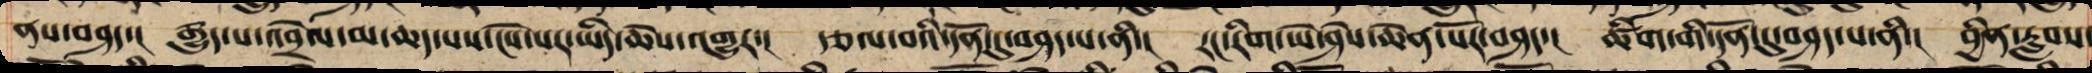ནས་བཤད་། རྒྱུད་པ་འབྲེལ་མ་ཆད་པས་ངེས་པར་ཡིད་ཆེས་འགྱུར་། རྩལ་བའི་དོན་དུ་བཤད་པ་ནི་། རང་རིག་ཡེ་ཤེས་ཆེན་པོར་བཤད་། ཚིག་གི་དོན་དུ་བཤད་པ་ནི་། བྱིན་རླབས་
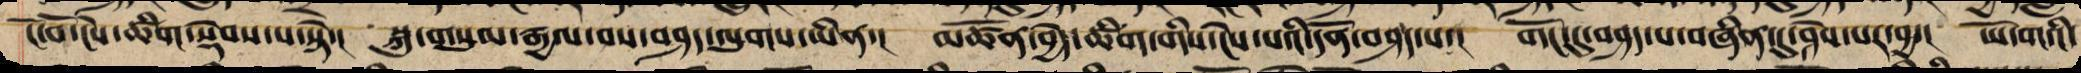ངོ་བོ་ངེས་ཚིག་སྡེབས་པ་སྟེ་། སྐུ་གསུམ་རྒྱལ་བས་བཤད་ལུགས་ཡིན་། མཚོན་བྱེད་ཚིག་གིས་ངེས་པའི་དོན་བཤད་པ་། གོང་དུ་བཤད་པ་བཞིན་དུ་ཤེས་པར་བྱ་། ཡོ་གའི་
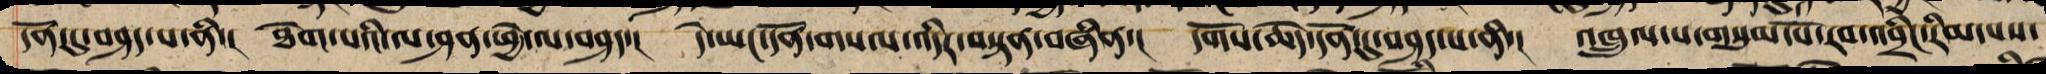དོན་དུ་བཤད་པ་ནི་། ཐེག་པའི་ལ་ཤན་ཕྱེ་ལ་བཤད་། དེ་ཡང་དོན་གསལ་འདིར་བསྟན་བཞིན་། དགོས་ཆེད་དོན་དུ་བཤད་པ་ནི་། འཁྲུལ་པ་གསུམ་པོ་རབ་འབྲིང་རིམ་པས་
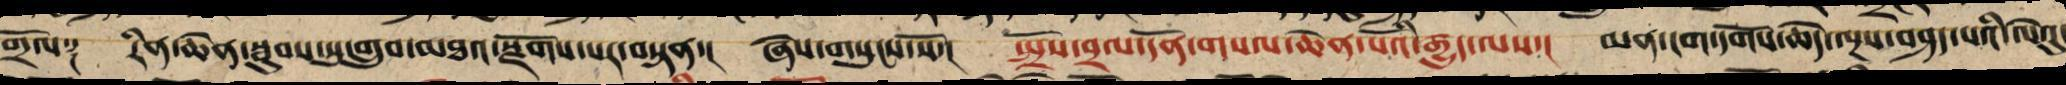གྲོལ༑ རིན་ཆེན་སྦུབས་སུ་གྲུབ་མཐའ་སྫོགས་པར་བསྟན་། ཞེས་གསུངས་སོ་། སྤྲོས་བྲལ་དོན་གསལ་ཆེན་པོའི་རྒྱུད་ལས་། མན་ངག་དགོས་ཆེད་ལྔས་བཤད་པའི་ལེའུ་
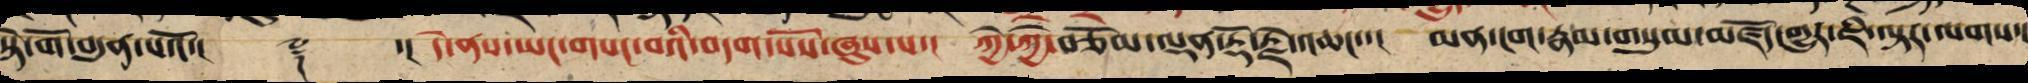སྟེ་གོ་བདུན་པའོ་།། ༈ ་། དེ་ནས་ཡང་གསང་བའི་བདག་པོས་ཞུས་པ་། ཀྱེ་ཀྱེ་བཅོམ་ལྡན་རྡོ་རྗེ་འཆང་་། མན་ངག་རྣམ་གསུམ་མཛོད་གྱུར་ཇི་ལྟར་ལགས་།
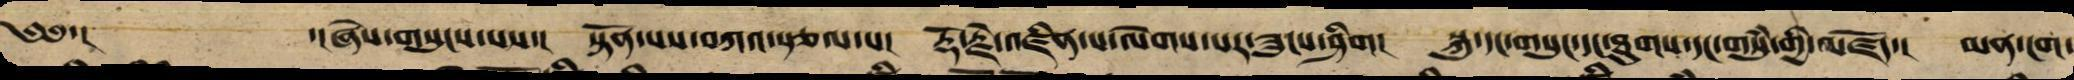༄༅་། ་།ཞེས་གསུངས་པས་། སྟོན་པས་བཀའ་སྩལ་པ། རྡོ་རྗེ་འཛིན་པ་ལེགས་པར་ཟུངས་ཤིག། སྐུ་དང་གསུང་དང་ཐུགས་དང་གསུཾ་གྱི་མཛོད་། མན་ངག་
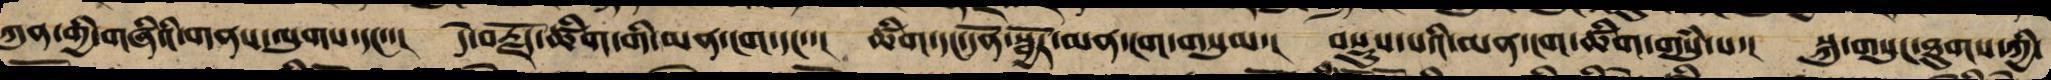ཀུན་གྱི་གཞིའི་གནས་ལུགས་དང་་། དེ་བརྗོད་ཚིག་གི་མན་ངག་དང་་། ཚིག་དང་དོན་སྦྱོར་མན་ངག་གསུམ་། བསྡུས་པའི་མན་ངག་ཚིག་གསུཾ་པ་། སྐུ་གསུང་ཐུགས་ཀྱི་
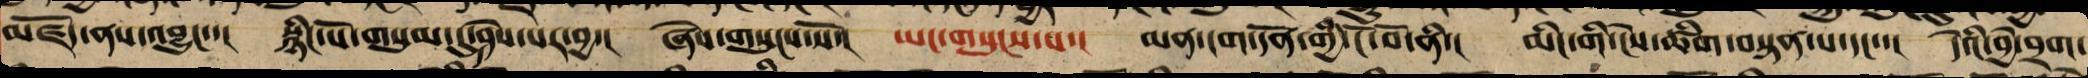མཛོད་ནས་འབྱུང་་། སྙིང་པོ་གསུམ་དུ་ཤེས་པར་བྱ་། ཞེས་གསུངས་སོ་། ཡང་གསུངས་པ་། མན་ངག་དོན་གྱི་ངོ་བོ་ནི་། མིང་གི་ངེས་ཚིག་བསྟན་པ་དང་་། དེའི་བྱེ་བྲག་
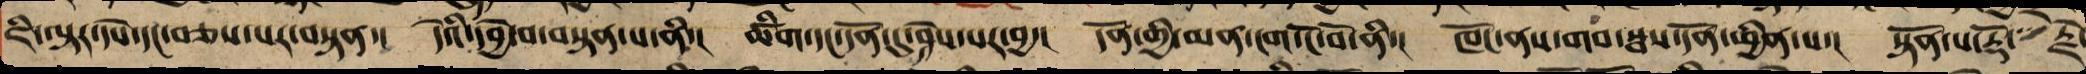ཇི་ལྟར་དཔེ་དང་བཅས་པར་བསྟན་། དེའི་དབྱེ་བ་བསྟན་པ་ནི་། ཚིག་དང་དོན་དུ་ཤེས་པར་བྱ་། དོན་གྱི་མན་ངག་ངོ་བོ་ནི་། ཁོང་ནས་གབ་སྦས་དོན་ཕྱིན་པ་། སྟོན་པ་རྡོ་ རྗེ་
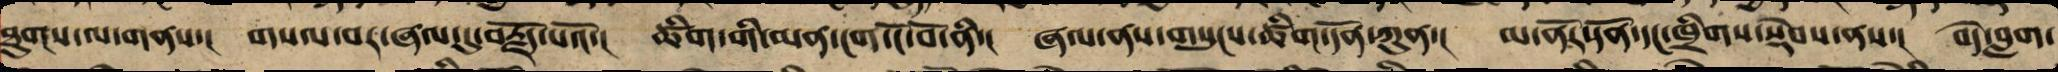ཐུགས་ལ་གནས་། གསལ་བར་ཞལ་དུ་བརྗོད་པའོ་། ཚིག་གི་མན་ངག་ངོ་བོ་ནི་། ཞལ་ནས་གསུངས་ཚིག་དོན་ཀུན་། མ་ནོར་དོན་དང་ཁྲིགས་སྡེབས་ནས་། བདེ་བླག་
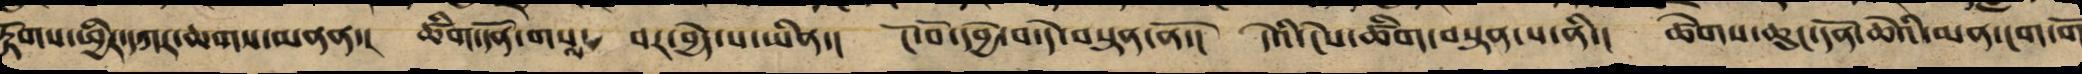རྟོགས་ཕྱིར་དཀར་ཆགས་མནན་། ཚིག་དོན་གས་ བར་བྱེད་པ་ཡིན་། ངོ་བོ་དབྱེ་བ་དེ་བསྟན་ནོ་། དེའི་ངེས་ཚིག་བསྟན་པ་ནི་། ཚེག་ཆུང་དོན་ཆེའི་མན་ངག་གོ
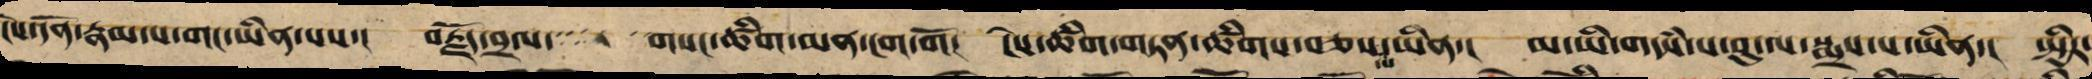ངེས་དོན་རྣམ་པ་གང་ཡིན་པས་། བརྗོད་བྲལ་ གསང་ཚིག་མན་ངག་གོ། ངེས་ཚིག་གཏན་ཚིགས་བཅས་ཡིན་། མ་ཡི་གདཾས་པ་བུ་ལ་སྨྲས་པ་ཡིན་། སྤྱིར་
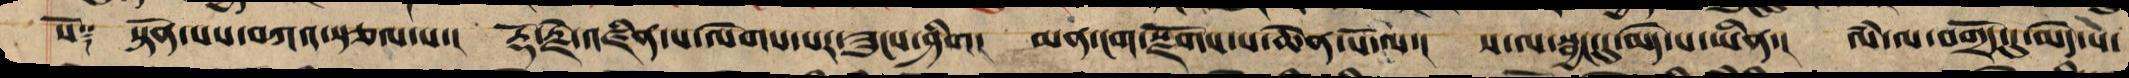སོ༑ སྟོན་པས་བཀའ་སྩལ་པ་། རྡོ་རྗེ་འཛིན་པ་ལེགས་པར་ཟུངས་ཤིག། མན་ངག་སྫོགས་པ་ཆེན་པོ་ལ་། ས་ལ་སྦྱང་དུ་མེད་པ་ཡིན་། ལཾ་ལ་བགྲོད་དུ་མེད་པ་
